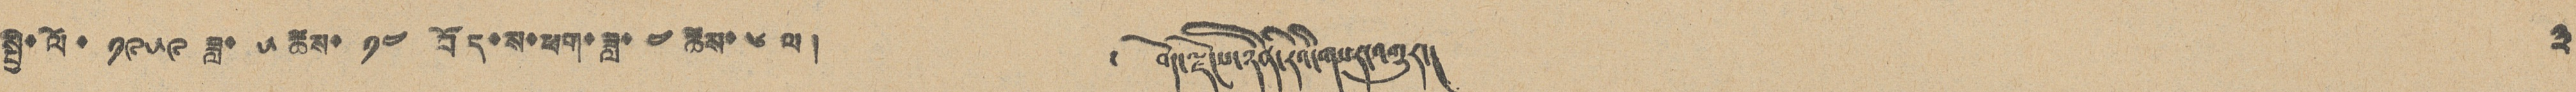སྤྱི་ལོ་ ༡༩༥༩ ཟླ་ ༥ ཚེས་ ༡༤ བོད་ས་ཕག་ཟླ་ ༤ ཚེས་ ༦ ལ། ༄ བོད་ལྗོངས་ཉིན་རེའི་གསར་འགྱུར། ༣
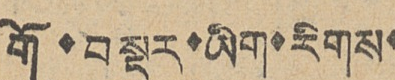གོ་བསྡུར་ཡིག་རིགས་
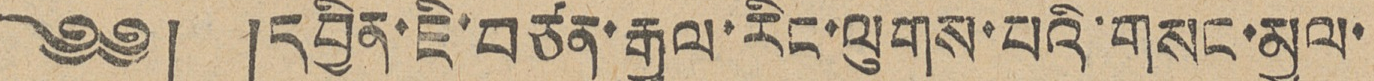༄༅། །དབྱིན་ཇི་བཙན་རྒྱལ་རིང་ལུགས་པའི་གསང་མྱུལ་
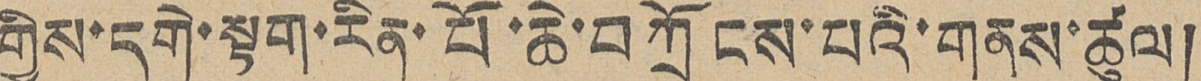གྱིས་དགེ་སྟག་རིན་པོ་ཆེ་བཀྲོངས་པའི་གནས་ཚུལ།
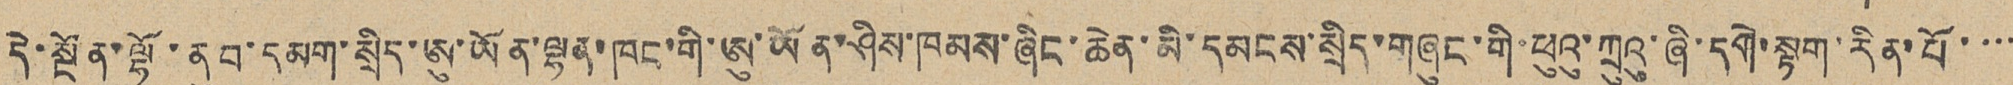དེ་སྔོན་ལྷོ་ནུབ་དམག་སྲིད་ཨུ་ཡོན་ལྷན་ཁང་གི་ཨུ་ཡོན་ཤིས་ཁམས་ཞིང་ཆེན་མི་དམངས་སྲིད་གཞུང་གི་ཕུའུ་ཀྲུའུ་ཞི་དགེ་སྟག་རིན་པོ་་་་
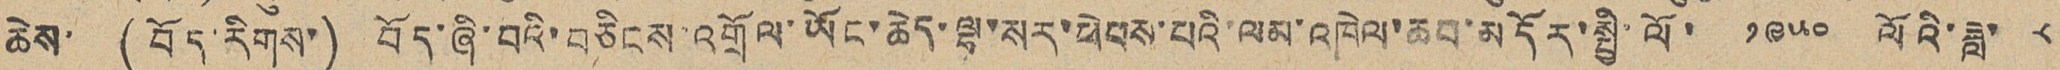ཆེས་ (བོད་རིགས་) བོད་ཞི་བའི་བཅིངས་འགྲོལ་ཡོང་ཆེད་ལྷ་སར་ཕེབས་པའི་ལམ་འཁེལ་ཆབ་མདོར་སྤྱི་ལོ་ ༡༩༥༠ ལོའི་ཟླ་ ༨
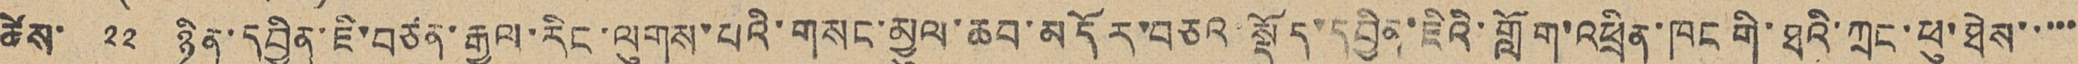ཚེས་ ༢༢ ཉིན་དབྱིན་ཇི་བཙན་རྒྱལ་རིང་ལུགས་པའི་གསང་མྱུལ་ཆབ་མདོར་བཅའ་སྡོད་དབྱིན་ཇིའི་གློག་འཕྲིན་ཁང གི་ཐའི་ཀྲང་ཕུ་ཐེས་་་་་
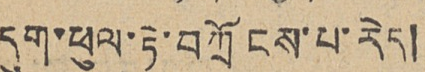དུག་ཕུལ་ཏེ་བཀྲོངས་པ་རེད།
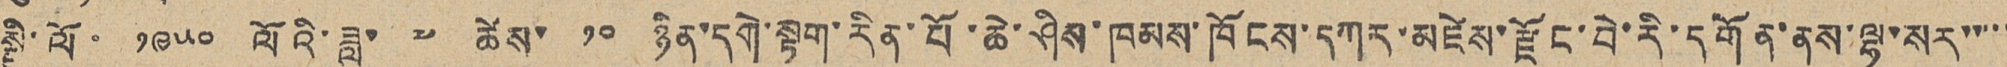སྤྱི་ལོ་ ༡༩༥༠ ལོའི་ཟླ་ ༧ ཚེས་ ༡༠ ཉིན་དགེ་སྟག་རིན་པོ་ཆེ་ཤིས་ཁམས་ཁོངས་དཀར་མཛེས་རྫོང་བེ་རི་དགོན་ནས་ལྷ་སར་་་་་
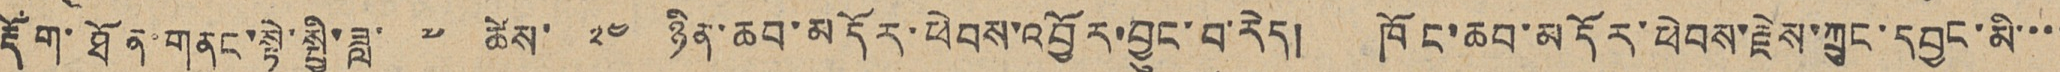རྡོག་ཐོན་གནང་སྟེ་སྤྱི་ཟླ་ ༧ ཚེས་ ༢༤ ཉིན་ཆབ་མདོར་ཕེབས་འབྱོར་བྱུང་བ་རེད། ཁོང་ཆབ་མདོར་ཕེབས་རྗེས་ཀྲུང་དབྱང་མི་་་་
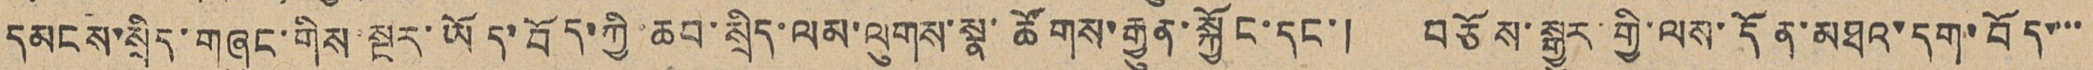དམངས་སྲིད་གཞུང་གིས་སྔར་ཡོད་བོད་ཀྱི་ཆབ་སྲིད་ལམ་ལུགས་སྣ་ཚོགས་རྒྱུན་སྐྱོང་དང་། བཅོས་སྒྱུར་གྱི་ལས་དོན་མཐའ་དག་བོད་་་་
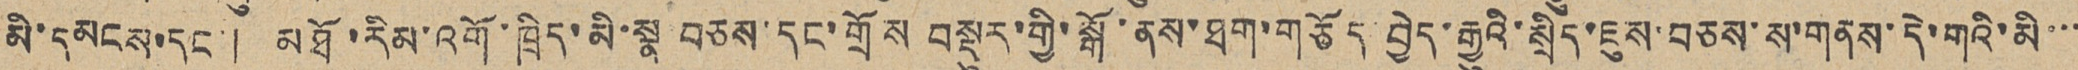མི་དམངས་དང་། མཐོ་རིམ་འགོ་ཁྲིད་མི་སྣ བཅས་དང་གྲོས བསྡུར་གྱི་སྒོ་ནས་ཐག་གཅོད བྱེད་རྒྱུའི་སྲིད་ཇུས་བཅས་ས་གནས་དེ་གའི་མི་་་
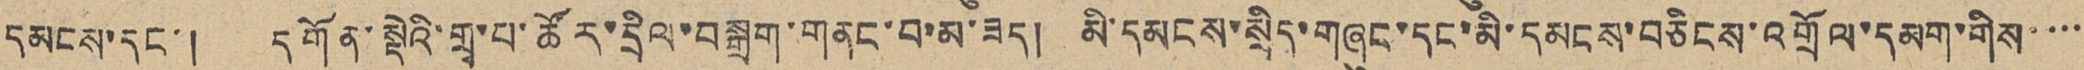དམངས་དང་། དགོན་སྡེའི་གྲྭ་པ་ཚོར་དྲིལ་བསྒྲག་གནང་བ་མ་ཟད། མི་དམངས་སྲིད་གཞུང་དང་མི་དམངས་བཅིངས་འགྲོལ་དམག་གིས་་་་
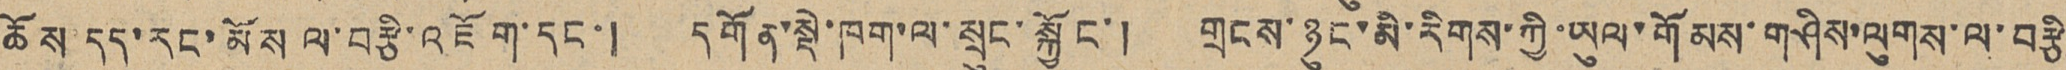ཆོས་དད་རང་མོས ལ་བརྩི་འཇོག་དང་། དགོན་སྡེ་ཁག་ལ་སྲུང་སྐྱོང་། གྲངས་ཉུང་མི་རིགས་ཀྱི་ཡུལ་གོམས་གཤིས་ལུགས་ལ་བརྩི་
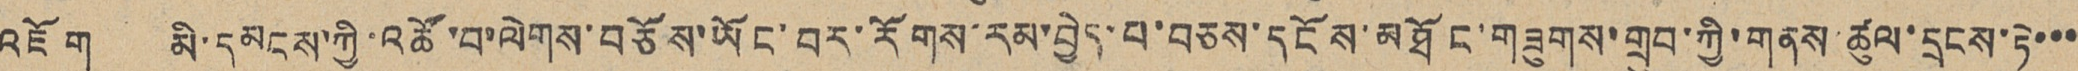འཇོག མི་དམངས་ཀྱི་འཚོ་བ་ལེགས་བཅོས་ཡོང་བར་རོགས་རམ་བྱེད་པ་བཅས་དངོས་མཐོང་གཟུགས་གྲུབ་ཀྱི་གནས་ཚུལ་དྲངས་ཏེ་་་
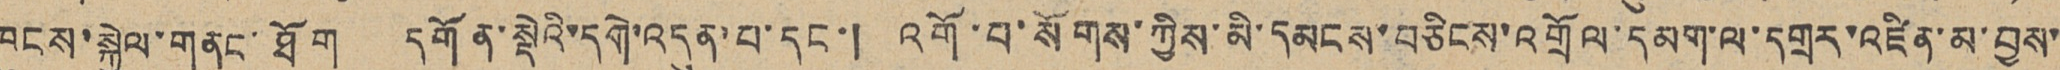ཁུངས་སྐྱེལ་གནང་ཐོག དགོན་སྡེའི་དགེ་འདུན་པ་དང་། འགོ་བ་སོགས་ཀྱིས་མི་དམངས་བཅིངས་འགྲོལ་དམག་ལ་དགྲར་འཛིན་མ་བྱས་་
